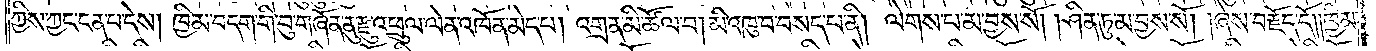ཀྱིས་ཀྱང་ངན་པ་དེས། ཁྱིམ་བདག་གི་བུ་གཞོན་ནུ་རྫུ་འཕྲུལ་ལེན་འཁོན་མེད་པ། འགྲན་མི་ཚོལ་བ། མི་འཁུ་བ་བསད་པ་ནི། ལེགས་པ་མ་བྱས་སོ། །ཤིན་ཏུ་མ་བྱས་སོ། །ཞེས་བརྗོད་དོ༎ཁྱིམ་
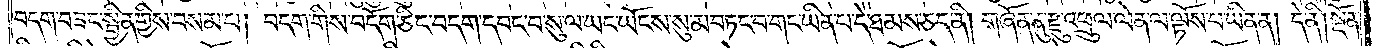བདག་བཟང་སྦྱིན་གྱིས་བསམ་པ། བདག་གིས་བདོག་ཅིང་བདག་དབང་བ་སུ་ལ་ཡང་ཡོངས་སུ་མ་བཏང་བ་གང་ཡིན་པ་དེ་ཐམས་ཅད་ནི། གཞོན་ནུ་རྫུ་འཕྲུལ་ལེན་ལ་ལྟོས་པ་ཡིན་ན། དེ་ནི། སྔོན་
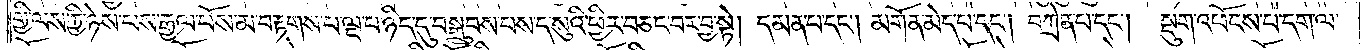གྱི་ལས་ཀྱི་ཉེས་པས་རྒྱལ་པོས་མ་བརྟགས་པ་ལྔ་པ་ཉིད་དུ་བསྒྲུབས་པས་ད་སུའི་ཕྱིར་བཅང་བར་བྱ་སྟེ། དམན་པ་དང༌། མགོན་མེད་པ་དང༌། བཀྲེན་པ་དང༌། སྡུག་འཕོངས་པ་དག་ལ་
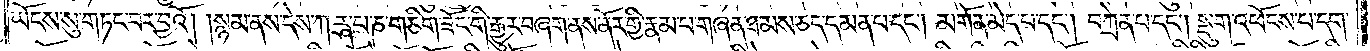ཡོངས་སུ་གཏང་བར་བྱའོ། །སྙམ་ནས་དེས་ཀཪྴ་པ་ཎ་གཅིག་ཟོང་གི་རྒྱུར་བཞག་ནས་ནོར་གྱི་རྣམ་པ་གཞན་ཐམས་ཅད་དམན་པ་དང༌། མགོན་མེད་པ་དང༌། བཀྲེན་པ་དང༌། སྡུག་འཕོངས་པ་དག་
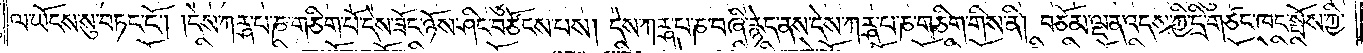ལ་ཡོངས་སུ་བཏང་ངོ༌། །དེས་ཀཪྴ་པ་ཎ་གཅིག་པོ་དེས་ཟོང་ཉོས་ཤིང་བཙོངས་པས། དེས་ཀཪྴ་པ་ཎ་བཞི་རྙེད་ནས་དེས་ཀཪྴ་པ་ཎ་གཅིག་གིས་ནི། བཅོམ་ལྡན་འདས་ཀྱི་དྲི་གཙང་ཁང་སྤོས་ཀྱི་
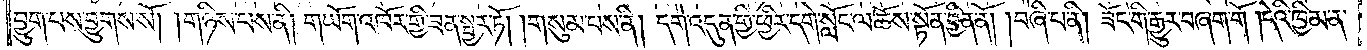བྱུག་པས་བྱུགས་སོ། །གཉིས་པས་ནི། གཡོག་འཁོར་གྱི་ཟན་སྦྱར་ཏོ། །གསུམ་པས་ནི། དགེ་འདུན་གྱི་ཕྱིར་དགེ་སློང་ལ་ཆོས་སྟོན་བྱིན་ནོ། །བཞི་པ་ནི། ཟོང་གི་རྒྱུར་བཞག་གོ །དེའི་ཁྱིམ་ན་
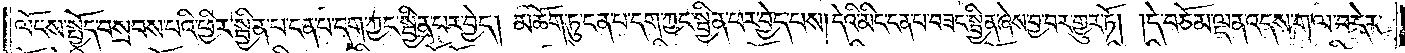ལོངས་སྤྱོད་བསྲབས་པའི་ཕྱིར་སྦྱིན་པ་ངན་པ་དག་ཀྱང་སྦྱིན་པར་བྱེད། མཆོག་ཏུ་ངན་པ་དག་ཀྱང་སྦྱིན་པར་བྱེད་པས། དེའི་མིང་ངན་པ་བཟང་སྦྱིན་ཞེས་བྱ་བར་གྱུར་ཏོ། །དེ་བཅོམ་ལྡན་འདས་ག་ལ་བ་དེར་
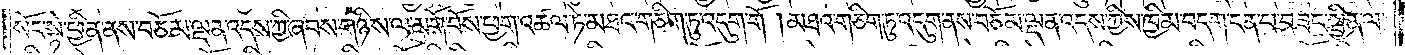སོང་སྟེ་ཕྱིན་ནས་བཅོམ་ལྡན་འདས་ཀྱི་ཞབས་གཉིས་ལ་མགོ་བོས་ཕྱག་འཚལ་ཏེ་མཐའ་གཅིག་ཏུ་འདུག་གོ །མཐའ་གཅིག་ཏུ་འདུག་ནས་བཅོམ་ལྡན་འདས་ཀྱིས་ཁྱིམ་བདག་ངན་པ་བཟང་སྦྱིན་ལ་
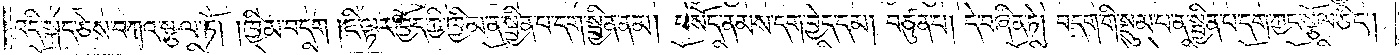འདི་སྐད་ཅེས་བཀའ་སྩལ་ཏོ། །ཁྱིམ་བདག །ཇི་ལྟར་ཁྱོད་ཀྱི་ཁྱིམ་ན་སྦྱིན་པ་དག་སྦྱིན་ནམ། བསོད་ནམས་དག་བྱེད་དམ། བཙུན་པ། དེ་བཞིན་ཏེ། བདག་གི་སྡུམ་པ་ན་སྦྱིན་པ་དག་ཀྱང་སྩོལ་ཅིང༌།
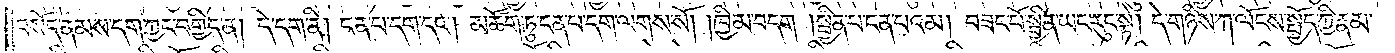བསོད་ནམས་དག་ཀྱང་བགྱིད་ན། དེ་དག་ནི། ངན་པ་དག་དང༌། མཆོག་ཏུ་ངན་པ་དག་ལགས་སོ། །ཁྱིམ་བདག །སྦྱིན་པ་ངན་པའམ། བཟང་པོ་སྦྱིན་ཡང་རུང་སྟེ། དེ་གཉིས་ཀ་ལོངས་སྤྱོད་ཀྱི་རྣམ་
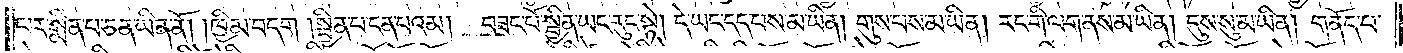པར་སྨིན་པ་ཅན་ཡིན་ནོ། །ཁྱིམ་བདག །སྦྱིན་པ་ངན་པའམ། བཟང་པོ་སྦྱིན་ཡང་རུང་སྟེ། དེ་ཡང་དད་པས་མ་ཡིན། གུས་པས་མ་ཡིན། རང་གི་ལག་ནས་མ་ཡིན། དུས་སུ་མ་ཡིན། གནོད་པ་
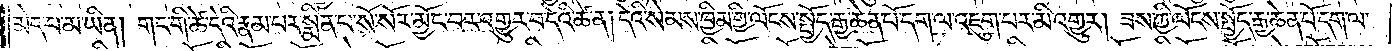མེད་པ་མ་ཡིན། གང་གི་ཚེ་དེའི་རྣམ་པར་སྨིན་པ་སོ་སོར་མྱོང་བར་འགྱུར་བ་དེའི་ཚེ་ན། དེའི་སེམས་ཁྱིམ་གྱི་ལོངས་སྤྱོད་རྒྱ་ཆེན་པོ་དག་ལ་འཇུག་པར་མི་འགྱུར། ཟས་ཀྱི་ལོངས་སྤྱོད་རྒྱ་ཆེན་པོ་དག་ལ་
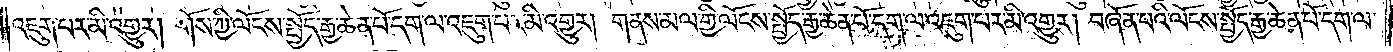འཇུག་པར་མི་འགྱུར། གོས་ཀྱི་ལོངས་སྤྱོད་རྒྱ་ཆེན་པོ་དག་ལ་འཇུག་པར་མི་འགྱུར། གནས་མལ་གྱི་ལོངས་སྤྱོད་རྒྱ་ཆེན་པོ་དག་ལ་འཇུག་པར་མི་འགྱུར། བཞོན་པའི་ལོངས་སྤྱོད་རྒྱ་ཆེན་པོ་དག་ལ་
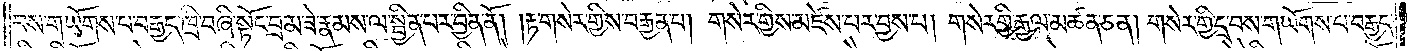བས་གཡོགས་པ་བརྒྱད་ཁྲི་བཞི་སྟོང་བྲམ་ཟེ་རྣམས་ལ་སྦྱིན་པར་བྱིན་ནོ་།རྟ་གསེར་གྱིས་བརྒྱན་པ། གསེར་གྱིས་མཛེས་པར་བྱས་པ། གསེར་གྱི་རྒྱལ་མཚན་ཅན། གསེར་གྱི་དྲ་བས་གཡོགས་པ་བརྒྱད་
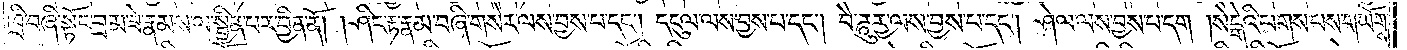ཁྲི་བཞི་སྟོང་བྲམ་ཟེ་རྣམས་ལ་སྦྱིན་པར་བྱིན་ནོ། །ཤིང་རྟ་རྣམ་བཞི་གསེར་ལས་བྱས་པ་དང༌། དངུལ་ལས་བྱས་པ་དང༌། བཻ་ཌཱུརྱ་ལས་བྱས་པ་དང༌། ཤེལ་ལས་བྱས་པ་དག། སེངྒེའི་པགས་པས་གཡོགས་
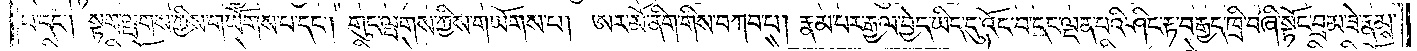པ་དང༌། སྟག་ལྤགས་ཀྱིས་གཡོགས་པ་དང༌། གུང་ལྤགས་ཀྱིས་གཡོགས་པ། ཨར་མོ་ནིག་གིས་བཀབ་པ། རྣམ་པར་རྒྱལ་བྱེད་ཡིད་དུ་འོང་བ་དང་ལྡན་པའི་ཤིང་རྟ་བརྒྱད་ཁྲི་བཞི་སྟོང་བྲམ་ཟེ་རྣམས་
